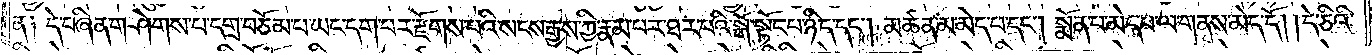ན། དེ་བཞིན་གཤེགས་པ་དགྲ་བཅོམ་པ་ཡང་དག་པར་རྫོགས་པའི་སངས་རྒྱས་ཀྱི་རྣམ་པར་ཐར་པའི་སྒོ་སྟོང་པ་ཉིད་དང༌། མཚན་མ་མེད་པ་དང༌། སྨོན་པ་མེད་པ་ལ་གནས་མེད་དོ། །དེ་ཅིའི་
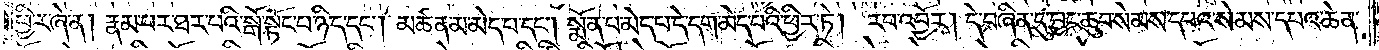ཕྱིར་ཞེ་ན། རྣམ་པར་ཐར་པའི་སྒོ་སྟོང་པ་ཉིད་དང༌། མཚན་མ་མེད་པ་དང༌། སྨོན་པ་མེད་པ་དེ་དག་མེད་པའི་ཕྱིར་ཏེ། རབ་འབྱོར། དེ་བཞིན་དུ་བྱང་ཆུབ་སེམས་དཔའ་སེམས་དཔའ་ཆེན་
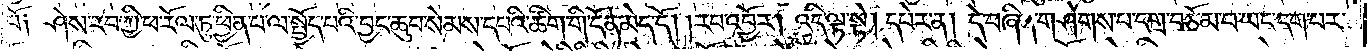པོ། ཤེས་རབ་ཀྱི་ཕ་རོལ་ཏུ་ཕྱིན་པ་ལ་སྤྱོད་པའི་བྱང་ཆུབ་སེམས་དཔའི་ཚིག་གི་དོན་མེད་དོ། །རབ་འབྱོར། འདི་ལྟ་སྟེ། དཔེར་ན། དེ་བཞིན་གཤེགས་པ་དགྲ་བཅོམ་པ་ཡང་དག་པར་
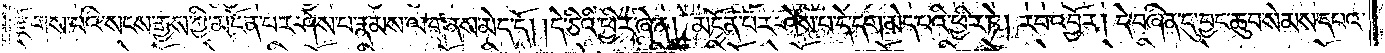རྫོགས་པའི་སངས་རྒྱས་ཀྱི་མངོན་པར་ཤེས་པ་རྣམས་ལ་གནས་མེད་དོ། །དེ་ཅིའི་ཕྱིར་ཞེ་ན། མངོན་པར་ཤེས་པ་དེ་དག་མེད་པའི་ཕྱིར་ཏེ། རབ་འབྱོར། དེ་བཞིན་དུ་བྱང་ཆུབ་སེམས་དཔའ་
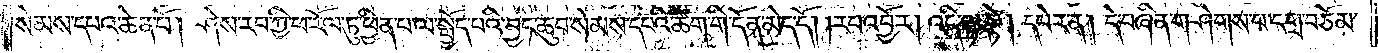སེམས་དཔའ་ཆེན་པོ། ཤེས་རབ་ཀྱི་ཕ་རོལ་ཏུ་ཕྱིན་པ་ལ་སྤྱོད་པའི་བྱང་ཆུབ་སེམས་དཔའི་ཚིག་གི་དོན་མེད་དོ། །རབ་འབྱོར། འདི་ལྟ་སྟེ། དཔེར་ན། དེ་བཞིན་གཤེགས་པ་དགྲ་བཅོམ་
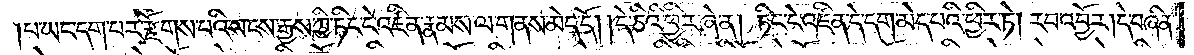པ་ཡང་དག་པར་རྫོགས་པའི་སངས་རྒྱས་ཀྱི་ཏིང་ངེ་འཛིན་རྣམས་ལ་གནས་མེད་དོ། །དེ་ཅིའི་ཕྱིར་ཞེ་ན། ཏིང་ངེ་འཛིན་དེ་དག་མེད་པའི་ཕྱིར་ཏེ། རབ་འབྱོར། དེ་བཞིན་
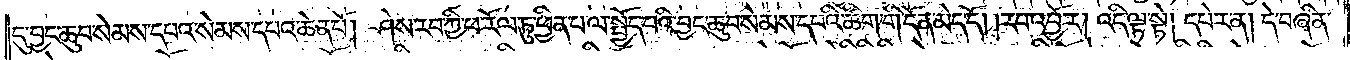དུ་བྱང་ཆུབ་སེམས་དཔའ་སེམས་དཔའ་ཆེན་པོ། ཤེས་རབ་ཀྱི་ཕ་རོལ་ཏུ་ཕྱིན་པ་ལ་སྤྱོད་པའི་བྱང་ཆུབ་སེམས་དཔའི་ཚིག་གི་དོན་མེད་དོ། །རབ་འབྱོར། འདི་ལྟ་སྟེ། དཔེར་ན། དེ་བཞིན་
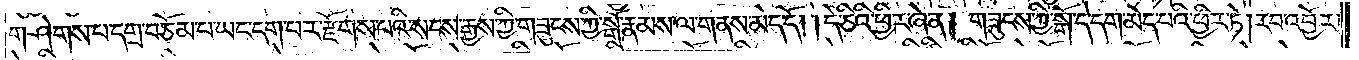གཤེགས་པ་དགྲ་བཅོམ་པ་ཡང་དག་པར་རྫོགས་པའི་སངས་རྒྱས་ཀྱི་གཟུངས་ཀྱི་སྒོ་རྣམས་ལ་གནས་མེད་དོ། །དེ་ཅིའི་ཕྱིར་ཞེ་ན། གཟུངས་ཀྱི་སྒོ་དེ་དག་མེད་པའི་ཕྱིར་ཏེ། རབ་འབྱོར།
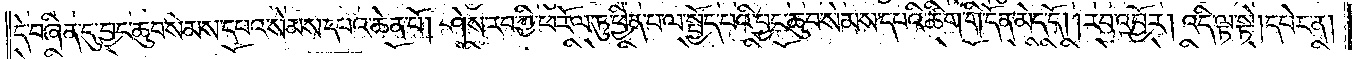དེ་བཞིན་དུ་བྱང་ཆུབ་སེམས་དཔའ་སེམས་དཔའ་ཆེན་པོ། ཤེས་རབ་ཀྱི་ཕ་རོལ་ཏུ་ཕྱིན་པ་ལ་སྤྱོད་པའི་བྱང་ཆུབ་སེམས་དཔའི་ཚིག་གི་དོན་མེད་དོ། །རབ་འབྱོར། འདི་ལྟ་སྟེ། དཔེར་ན།
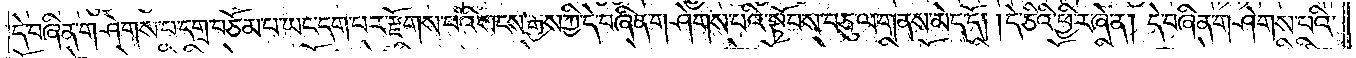དེ་བཞིན་གཤེགས་པ་དགྲ་བཅོམ་པ་ཡང་དག་པར་རྫོགས་པའི་སངས་རྒྱས་ཀྱི་དེ་བཞིན་གཤེགས་པའི་སྟོབས་བཅུ་ལ་གནས་མེད་དོ། །དེ་ཅིའི་ཕྱིར་ཞེ་ན། དེ་བཞིན་གཤེགས་པའི་
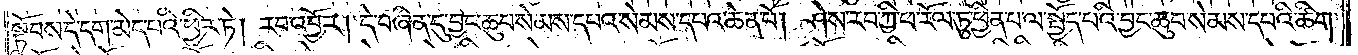སྟོབས་དེ་དག་མེད་པའི་ཕྱིར་ཏེ། རབ་འབྱོར། དེ་བཞིན་དུ་བྱང་ཆུབ་སེམས་དཔའ་སེམས་དཔའ་ཆེན་པོ། ཤེས་རབ་ཀྱི་ཕ་རོལ་ཏུ་ཕྱིན་པ་ལ་སྤྱོད་པའི་བྱང་ཆུབ་སེམས་དཔའི་ཚིག་
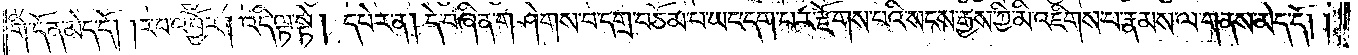གི་དོན་མེད་དོ། །རབ་འབྱོར། འདི་ལྟ་སྟེ། དཔེར་ན། དེ་བཞིན་གཤེགས་པ་དགྲ་བཅོམ་པ་ཡང་དག་པར་རྫོགས་པའི་སངས་རྒྱས་ཀྱི་མི་འཇིགས་པ་རྣམས་ལ་གནས་མེད་དོ། །
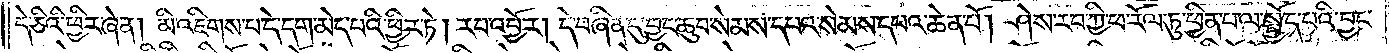དེ་ཅིའི་ཕྱིར་ཞེ་ན། མི་འཇིགས་པ་དེ་དག་མེད་པའི་ཕྱིར་ཏེ། རབ་འབྱོར། དེ་བཞིན་དུ་བྱང་ཆུབ་སེམས་དཔའ་སེམས་དཔའ་ཆེན་པོ། ཤེས་རབ་ཀྱི་ཕ་རོལ་ཏུ་ཕྱིན་པ་ལ་སྤྱོད་པའི་བྱང་
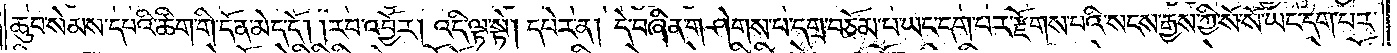ཆུབ་སེམས་དཔའི་ཚིག་གི་དོན་མེད་དོ། །རབ་འབྱོར། འདི་ལྟ་སྟེ། དཔེར་ན། དེ་བཞིན་གཤེགས་པ་དགྲ་བཅོམ་པ་ཡང་དག་པར་རྫོགས་པའི་སངས་རྒྱས་ཀྱི་སོ་སོ་ཡང་དག་པར་
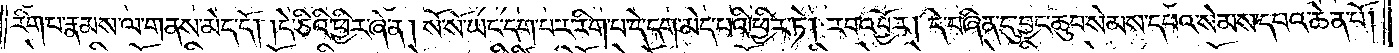རིག་པ་རྣམས་ལ་གནས་མེད་དོ། །དེ་ཅིའི་ཕྱིར་ཞེ་ན། སོ་སོ་ཡང་དག་པར་རིག་པ་དེ་དག་མེད་པའི་ཕྱིར་ཏེ། རབ་འབྱོར། དེ་བཞིན་དུ་བྱང་ཆུབ་སེམས་དཔའ་སེམས་དཔའ་ཆེན་པོ།
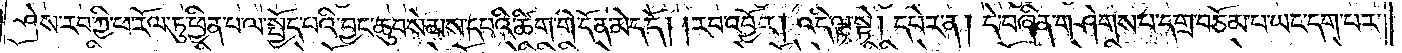ཤེས་རབ་ཀྱི་ཕ་རོལ་ཏུ་ཕྱིན་པ་ལ་སྤྱོད་པའི་བྱང་ཆུབ་སེམས་དཔའི་ཚིག་གི་དོན་མེད་དོ། །རབ་འབྱོར། འདི་ལྟ་སྟེ། དཔེར་ན། དེ་བཞིན་གཤེགས་པ་དགྲ་བཅོམ་པ་ཡང་དག་པར་
